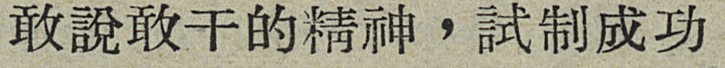敢說敢干的精神，試制成功
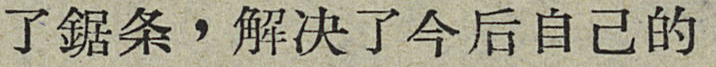了鋸条，解决了今后自己的
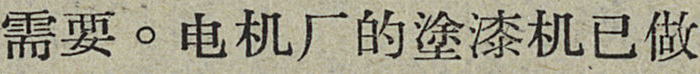需要。电机厂的涂漆机已做
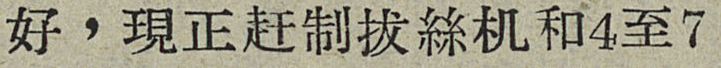好，現在赶制拔絲机和4至7
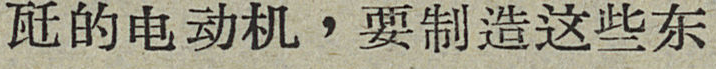瓩的电动机，要制造这些东
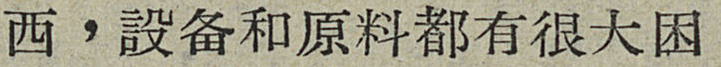西，設备和原料都有很大困
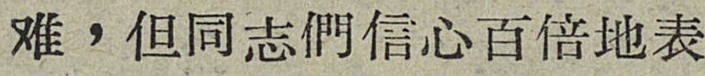难，但同志們信心百倍地表
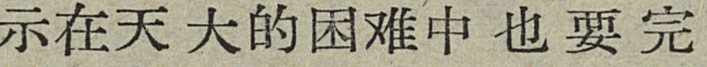示在天大的困难中也要完
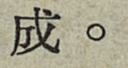成。
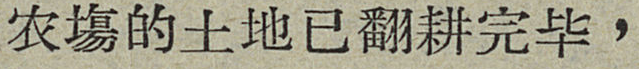农塲的土地已翻耕完毕，
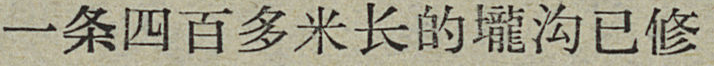一条四百多米长的壠沟已修
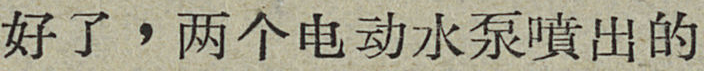好了，两个电动水泵噴出的
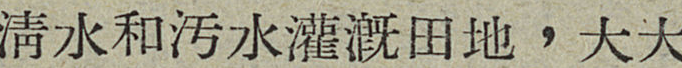清水和污水灌溉田地，大大
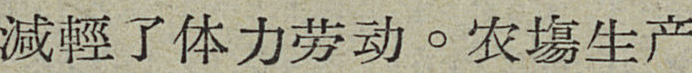減輕了体力劳动。农塲生产
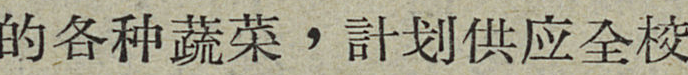的各种蔬菜，計划供应全校
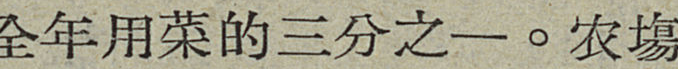全年用菜的三分之一。农塲
